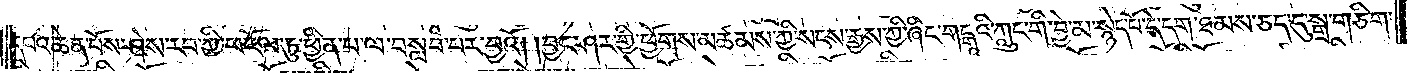དཔའ་ཆེན་པོས་ཤེས་རབ་ཀྱི་ཕ་རོལ་ཏུ་ཕྱིན་པ་ལ་བསླབ་པར་བྱའོ། །བྱང་ཤར་གྱི་ཕྱོགས་མཚམས་ཀྱི་སངས་རྒྱས་ཀྱི་ཞིང་གངྒཱའི་ཀླུང་གི་བྱེ་མ་སྙེད་པོ་དེ་དག་ཐམས་ཅད་དུ་སྒྲ་གཅིག་
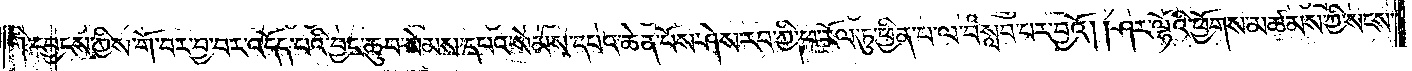གི་དབྱངས་ཀྱིས་གོ་བར་བྱ་བར་འདོད་པའི་བྱང་ཆུབ་སེམས་དཔའ་སེམས་དཔའ་ཆེན་པོས་ཤེས་རབ་ཀྱི་ཕ་རོལ་ཏུ་ཕྱིན་པ་ལ་བསླབ་པར་བྱའོ། །ཤར་ལྷོའི་ཕྱོགས་མཚམས་ཀྱི་སངས་
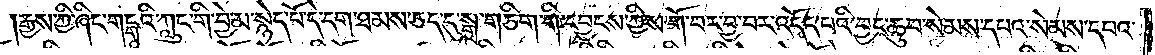རྒྱས་ཀྱི་ཞིང་གངྒཱའི་ཀླུང་གི་བྱེ་མ་སྙེད་པོ་དེ་དག་ཐམས་ཅད་དུ་སྒྲ་གཅིག་གི་དབྱངས་ཀྱིས་གོ་བར་བྱ་བར་འདོད་པའི་བྱང་ཆུབ་སེམས་དཔའ་སེམས་དཔའ་
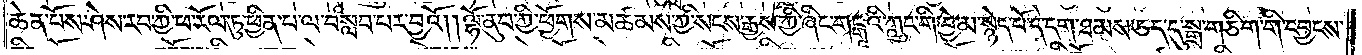ཆེན་པོས་ཤེས་རབ་ཀྱི་ཕ་རོལ་ཏུ་ཕྱིན་པ་ལ་བསླབ་པར་བྱའོ། །ལྷོ་ནུབ་ཀྱི་ཕྱོགས་མཚམས་ཀྱི་སངས་རྒྱས་ཀྱི་ཞིང་གངྒཱའི་ཀླུང་གི་བྱེ་མ་སྙེད་པོ་དེ་དག་ཐམས་ཅད་དུ་སྒྲ་གཅིག་གི་དབྱངས་
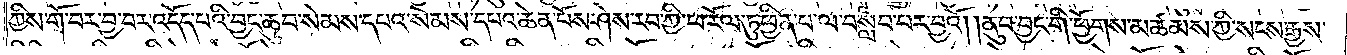ཀྱིས་གོ་བར་བྱ་བར་འདོད་པའི་བྱང་ཆུབ་སེམས་དཔའ་སེམས་དཔའ་ཆེན་པོས་ཤེས་རབ་ཀྱི་ཕ་རོལ་ཏུ་ཕྱིན་པ་ལ་བསླབ་པར་བྱའོ། །ནུབ་བྱང་གི་ཕྱོགས་མཚམས་ཀྱི་སངས་རྒྱས་
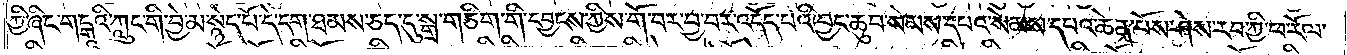ཀྱི་ཞིང་གངྒཱའི་ཀླུང་གི་བྱེ་མ་སྙེད་པོ་དེ་དག་ཐམས་ཅད་དུ་སྒྲ་གཅིག་གི་དབྱངས་ཀྱིས་གོ་བར་བྱ་བར་འདོད་པའི་བྱང་ཆུབ་སེམས་དཔའ་སེམས་དཔའ་ཆེན་པོས་ཤེས་རབ་ཀྱི་ཕ་རོལ་
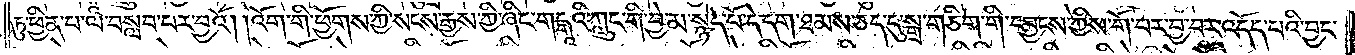ཏུ་ཕྱིན་པ་ལ་བསླབ་པར་བྱའོ། །འོག་གི་ཕྱོགས་ཀྱི་སངས་རྒྱས་ཀྱི་ཞིང་གངྒཱའི་ཀླུང་གི་བྱེ་མ་སྙེད་པོ་དེ་དག་ཐམས་ཅད་དུ་སྒྲ་གཅིག་གི་དབྱངས་ཀྱིས་གོ་བར་བྱ་བར་འདོད་པའི་བྱང་
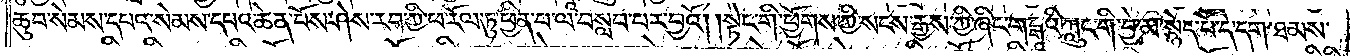ཆུབ་སེམས་དཔའ་སེམས་དཔའ་ཆེན་པོས་ཤེས་རབ་ཀྱི་ཕ་རོལ་ཏུ་ཕྱིན་པ་ལ་བསླབ་པར་བྱའོ། །སྟེང་གི་ཕྱོགས་ཀྱི་སངས་རྒྱས་ཀྱི་ཞིང་གངྒཱའི་ཀླུང་གི་བྱེ་མ་སྙེད་པོ་དེ་དག་ཐམས་
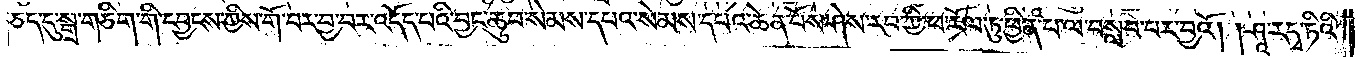ཅད་དུ་སྒྲ་གཅིག་གི་དབྱངས་ཀྱིས་གོ་བར་བྱ་བར་འདོད་པའི་བྱང་ཆུབ་སེམས་དཔའ་སེམས་དཔའ་ཆེན་པོས་ཤེས་རབ་ཀྱི་ཕ་རོལ་ཏུ་ཕྱིན་པ་ལ་བསླབ་པར་བྱའོ། །ཤཱ་ར་དྭ་ཏིའི་
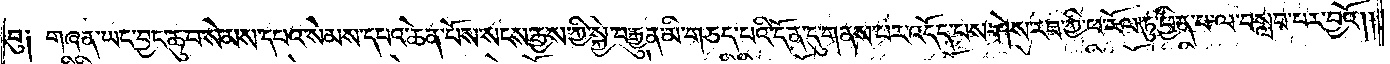བུ༑ གཞན་ཡང་བྱང་ཆུབ་སེམས་དཔའ་སེམས་དཔའ་ཆེན་པོས་སངས་རྒྱས་ཀྱི་སྐྱེ་བ་རྒྱུན་མི་གཅད་པའི་དོན་དུ་གནས་པར་འདོད་པས་ཤེས་རབ་ཀྱི་ཕ་རོལ་ཏུ་ཕྱིན་པ་ལ་བསླབ་པར་བྱའོ༎
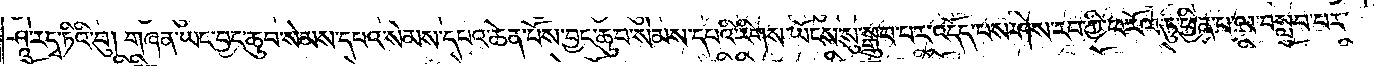ཤཱ་ར་དྭ་ཏིའི་བུ། གཞན་ཡང་བྱང་ཆུབ་སེམས་དཔའ་སེམས་དཔའ་ཆེན་པོས་བྱང་ཆུབ་སེམས་དཔའི་རིགས་ཡོངས་སུ་སྒྲུབ་པར་འདོད་པས་ཤེས་རབ་ཀྱི་ཕ་རོལ་ཏུ་ཕྱིན་པ་ལ་བསླབ་པར་
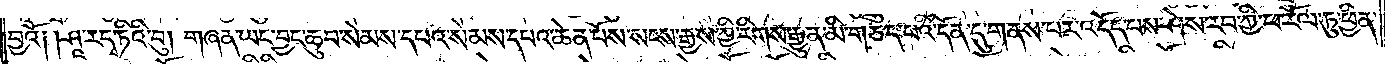བྱའོ༑ །ཤཱ་ར་དྭ་ཏིའི་བུ། གཞན་ཡང་བྱང་ཆུབ་སེམས་དཔའ་སེམས་དཔའ་ཆེན་པོས་སངས་རྒྱས་ཀྱི་རིགས་རྒྱུན་མི་གཅད་པའི་དོན་དུ་གནས་པར་འདོད་པས་ཤེས་རབ་ཀྱི་ཕ་རོལ་ཏུ་ཕྱིན་
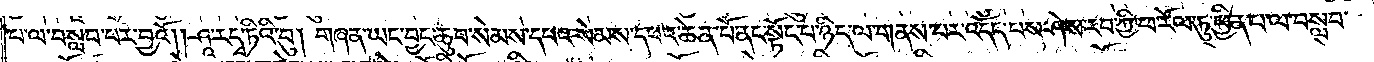པ་ལ་བསླབ་པར་བྱའོ། །ཤཱ་ར་དྭ་ཏིའི་བུ། གཞན་ཡང་བྱང་ཆུབ་སེམས་དཔའ་སེམས་དཔའ་ཆེན་པོ་ནང་སྟོང་པ་ཉིད་ལ་གནས་པར་འདོད་པས་ཤེས་རབ་ཀྱི་ཕ་རོལ་ཏུ་ཕྱིན་པ་ལ་བསླབ་
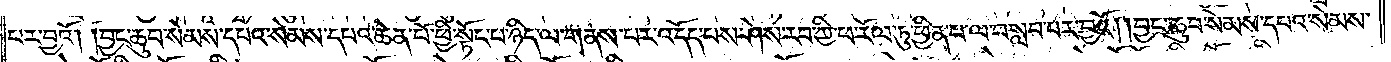པར་བྱའོ། །བྱང་ཆུབ་སེམས་དཔའ་སེམས་དཔའ་ཆེན་པོ་ཕྱི་སྟོང་པ་ཉིད་ལ་གནས་པར་འདོད་པས་ཤེས་རབ་ཀྱི་ཕ་རོལ་ཏུ་ཕྱིན་པ་ལ་བསླབ་པར་བྱའོ། །བྱང་ཆུབ་སེམས་དཔའ་སེམས་
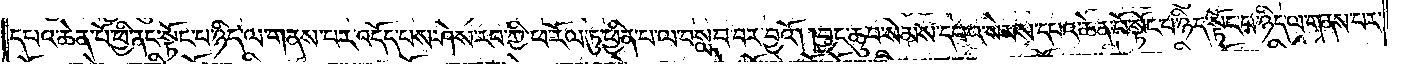དཔའ་ཆེན་པོ་ཕྱི་ནང་སྟོང་པ་ཉིད་ལ་གནས་པར་འདོད་པས་ཤེས་རབ་ཀྱི་ཕ་རོལ་ཏུ་ཕྱིན་པ་ལ་བསླབ་བར་བྱའོ། །བྱང་ཆུབ་སེམས་དཔའ་སེམས་དཔའ་ཆེན་པོ་སྟོང་པ་ཉིད་སྟོང་པ་ཉིད་ལ་གནས་པར་
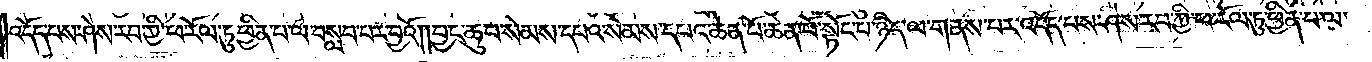འདོད་པས་ཤེས་རབ་ཀྱི་ཕ་རོལ་ཏུ་ཕྱིན་པ་ལ་བསླབ་པར་བྱའོ། །བྱང་ཆུབ་སེམས་དཔའ་སེམས་དཔའ་ཆེན་པོ་ཆེན་པོ་སྟོང་པ་ཉིད་ལ་གནས་པར་འདོད་པས་ཤེས་རབ་ཀྱི་ཕ་རོལ་ཏུ་ཕྱིན་པ་ལ་
